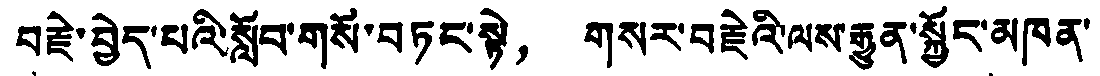བརྗེ་བྱེད་པའི་སློབ་གསོ་བཏང་སྟེ， གསར་བརྗེའི་ལས་རྒྱུན་སྐྱོང་མཁན་
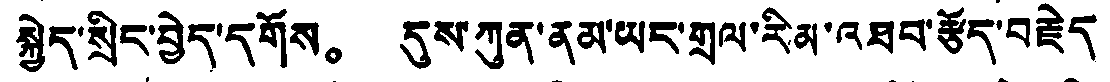སྐྱེད་སྲིང་བྱེད་དགོས。 དུས་ཀུན་ནམ་ཡང་གྲལ་རིམ་འཐབ་རྩོད་བརྗེད
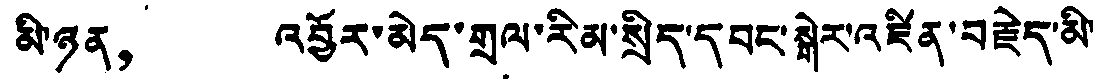མི་ཉན， འབྱོར་མེད་གྲལ་རིམ་སྲིད་དབང་སྒེར་འཛིན་བརྗེད་མི་
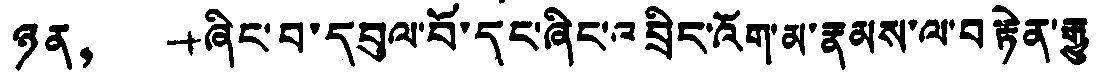ཉན， ཞིང་བ་དབུལ་བོ་དང་ཞིང་འབྲིང་འོག་མ་རྣམས་ལ་བརྟེན་རྒྱུ
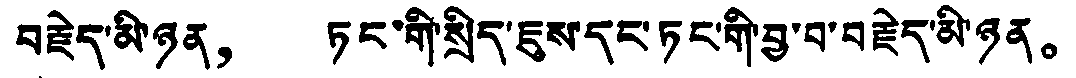བརྗེད་མི་ཉན， ཏང་གི་སྲིད་ཇུས་དང་ཏང་གི་བྱ་བ་བརྗེད་མི་ཉན。
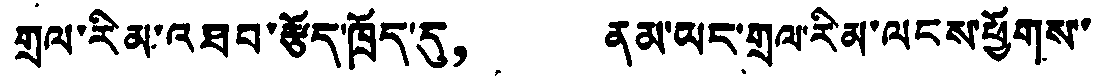གྲལ་རིམ་འཐབ་རྩོད་ཁྲོད་དུ， ནམ་ཡང་གྲལ་རིམ་ལངས་ཕྱོགས་
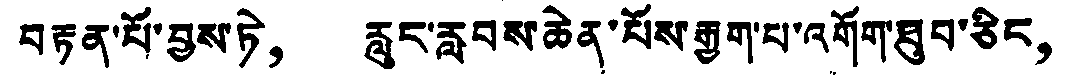བརྟན་པོ་བྱས་ཏེ， རླུང་རླབས་ཆེན་པོས་རྒྱག་པ་འགོག་ཐུབ་ཅིང，
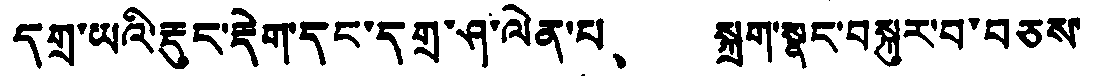དགྲ་ཡའི་རྡུང་རྡེག་དང་དགྲ་ཤུ་ལེན་པ、 སྐྲག་སྣད་བསྐུར་བ་བཅས་
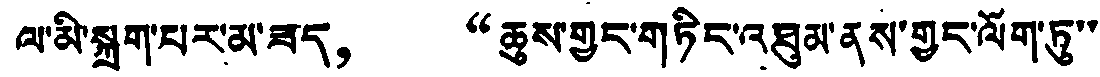ལ་མི་སྐྲག་པར་མ་ཟད， “ཆུས་གྱུར་གཏིང་འབུམ་ནས་གྱུར་ལོག་ཏུ་་
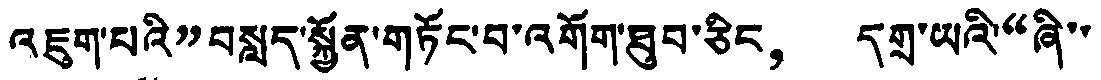འཇུག་པའི”བསླད་སྐྱོན་གཏོང་བ་འགོག་ཐུབ་ཅིང， དགྲ་ཡའི་“ཞི་་
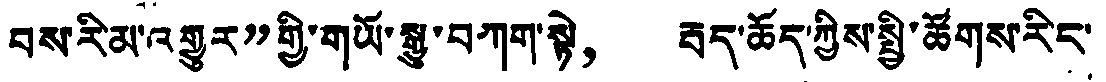བས་རིམ་འགྱུར”གྱི་གཡོ་སྒྱུ་བཀག་སྟེ， རྦད་ཆོད་ཀྱིས་སྤྱི་ཚོགས་རིང་
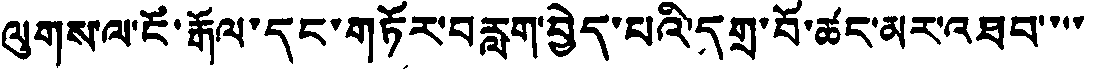ལུགས་ལ་ངོ་རྒོལ་དང་གཏོར་བརླག་བྱེད་པའི་དགྲ་བོ་ཚང་མར་འཐབ་་་་
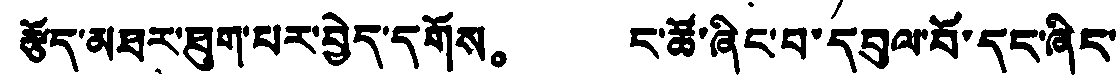རྩོད་མཐར་ཐུག་པར་བྱེད་དགོས。 ང་ཚོ་ཞིང་བ་དབུལ་བོ་དང་ཞིང་
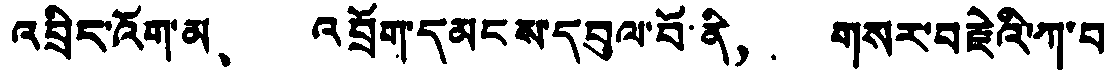འབྲིད་འོག་མ、 འབྲོག་དམངས་དབུལ་བོ་ནི， གསར་བརྗེའི་ཀ་བ་
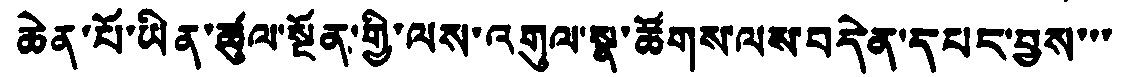ཆེན་པོ་ཡིན་ཚུལ་སྔོན་གྱི་ལས་འགུལ་སྣ་ཚོགས་ལས་བདེན་དཔང་བྱས་་་
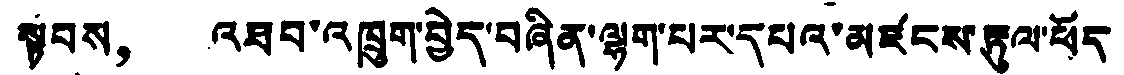སྟབས， འཐབ་འཁྲུག་བྱེད་བཞིན་ལྷག་པར་དཔའ་མཛངས་རྟུལ་ཕོད་
